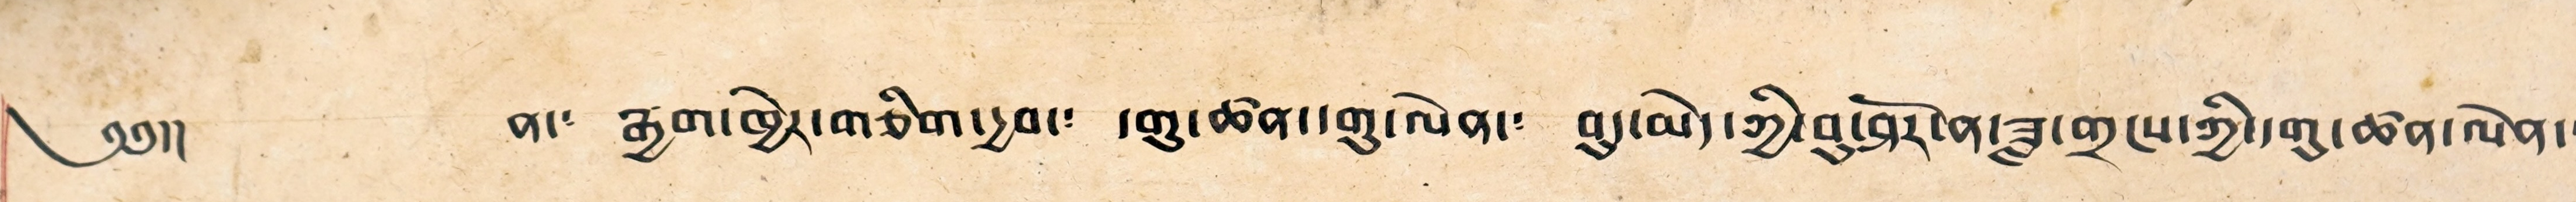༄༅།། ན་༴ རྒྱག་ཁྱེར་གཅིག་དྱབ་༴ དགུ་ཚན་དགུ་ལེན་༴ བུད་མེད་ཀྱི་བུ་ཤོར་ན་ཟླ་གྲངས་ཀྱི་དགུ་ཚན་ལེན་༴
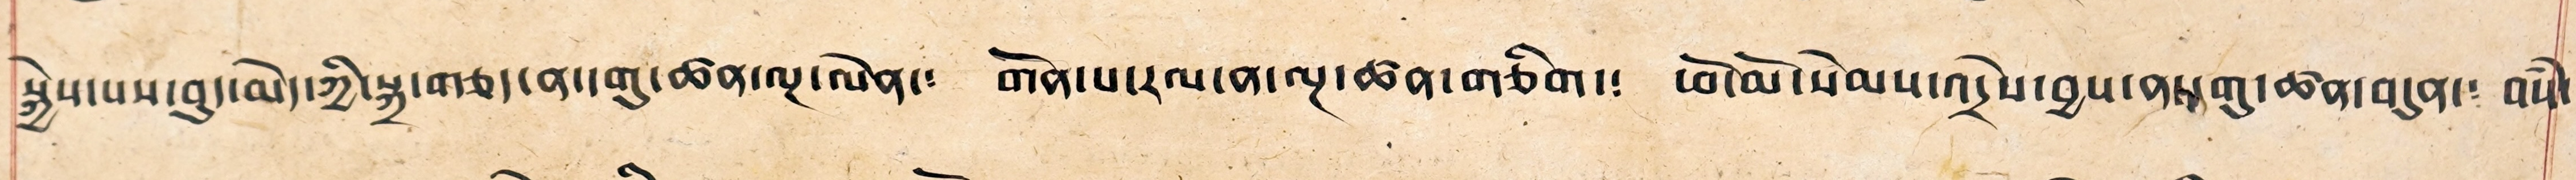སྐྱེས་པས་བུད་མེད་ཀྱི་སྐྲ་གཅད་ན་དགུ་ཚན་ལྔ་ལེན་༴ གོན་པ་རལ་ན་ལྔ་ཚན་གཅིག་༴ ཕོ་མོ་སེམས་འདྲེས་བྱས་ན་དགུ་ཚན་བདུན་༴ བསཾ་
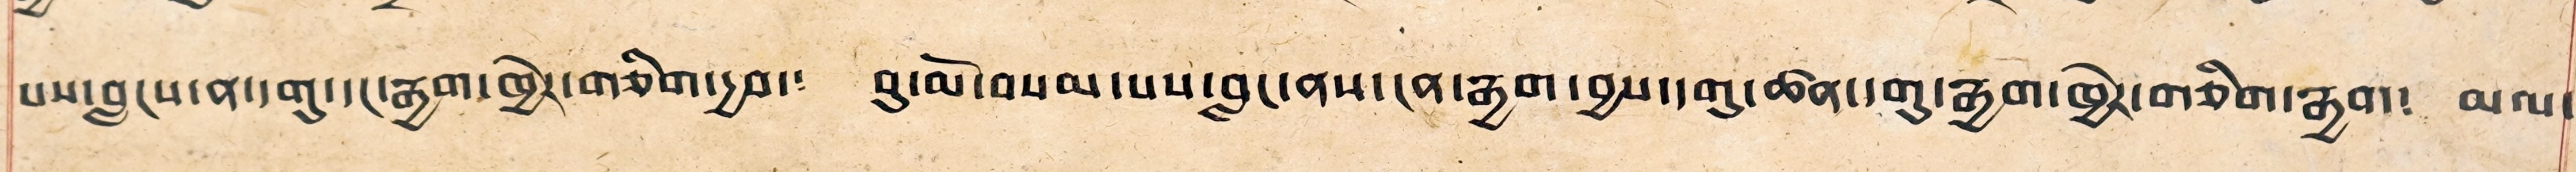པས་བླངས་ན་དགུ་དང་རྒྱག་ཁྱེར་གཅིག་དྱབ་༴ བུ་མོ་བསམ་པས་བླང་ནས་ངན་རྒྱག་བྱས་དགུ་ཚན་དགུ་རྒྱག་ཁྱེར་གཅིག་རྒྱག་༴ མལ་
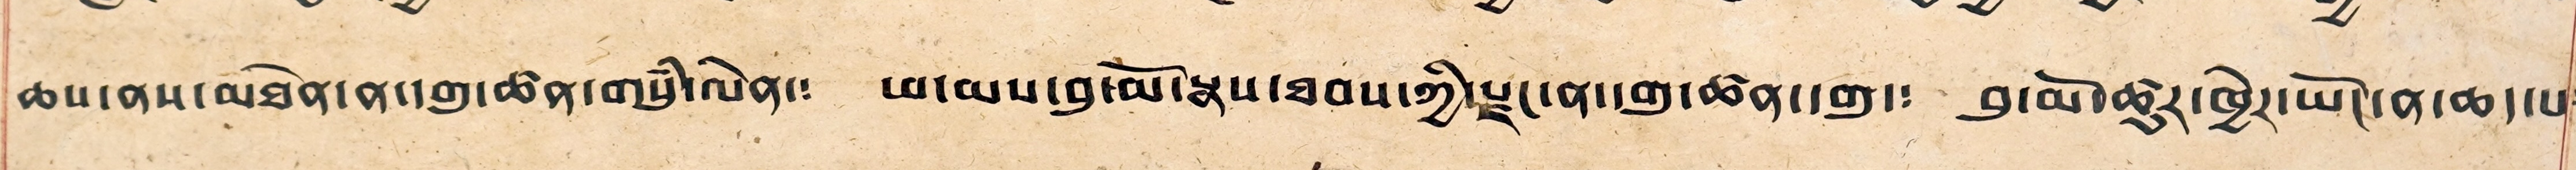ཆས་ནས་མཐོན་ན་དགུ་ཚན་གསུཾ་ལེན་༴ ཕ་མས་བུ་མོ་སྣས་ཐབས་ཀྱི་རྗང་ན་དགུ་ཚན་དགུ་༴ བུ་མོ་ཚུར་ཁྱེར་ཡོང་ན་ཆད་པ༴
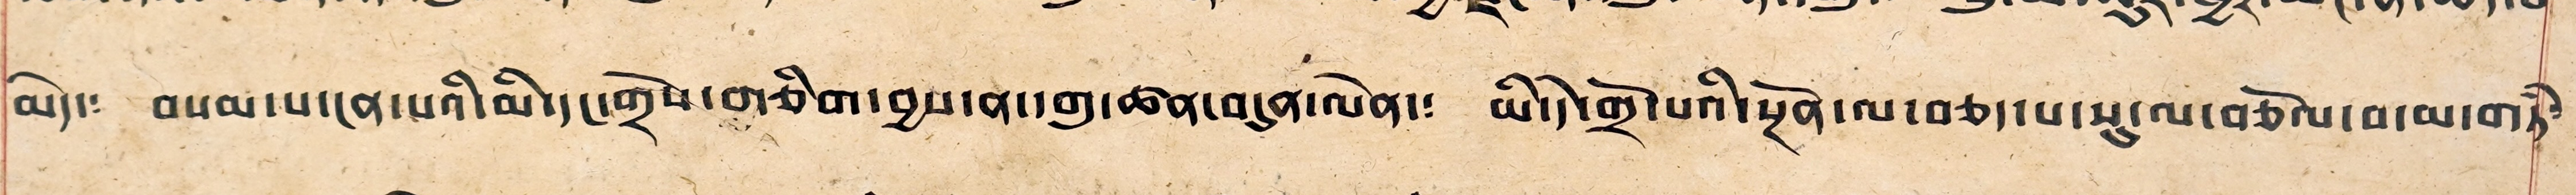མེད་༴ བསམ་པ་ངན་པའི་མི་དང་གྲོས་གཅིག་བྱས་ན་དགུ་ཚན་བདུན་ལེན་༴ མི་དེ་གྲོ་པའི་སྔོན་ལ་བཅད་པ་སུ་ལ་བཅོལ་བ་མ་གཏཾ་
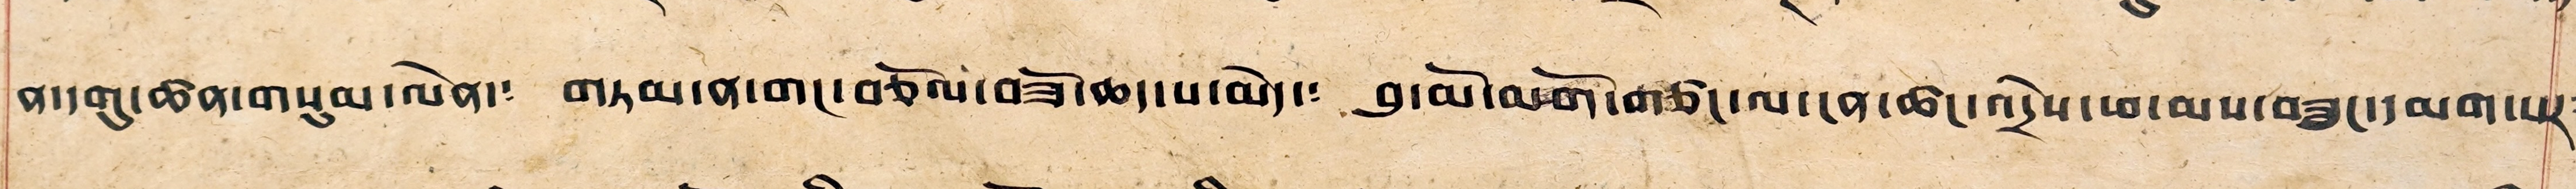ན་དགུ་ཚན་གསུམ་ལེན་༴ གཏམ་ན་གང་བཅོལ་བཟོ་ཆད་པ་མེད་༴ བུ་མོ་མགོ་གཙང་ལ་ངན་ཚང་འདྲེས་ཕ་མས་བཟུང་དམག་པར༴
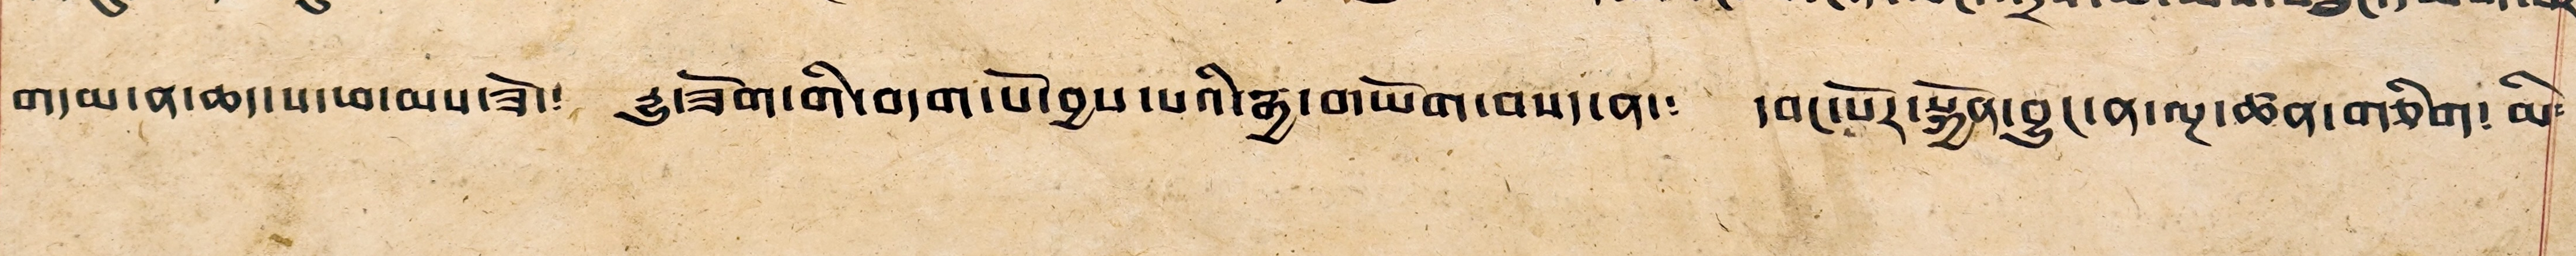གདམ་ན་ཆད་པ་ཕ་མས་ཟོ་༴ རྒྱུ་ཟོག་གི་བདག་པོ་བྱས་པའི་རྒྱ་གཡོག་བསད་ན་༴ དབང་པོར་སྐྱོན་བྱུང་ན་ལྔ་ཚན་གཅིག། མི༴
